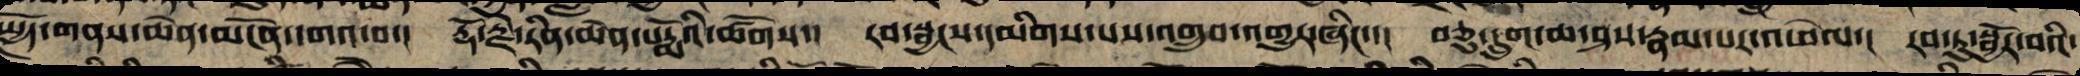སྤྱོད་གནས་ཆེན་མངོན་དགའ་བ་། རྡོ་རྗེ་རིན་ཆེན་པདྨོའི་ཚོགས་། རབ་སྦྱངས་དམིགས་པས་འགྲུབ་འགྱུར་ཞིང་་། བཅུ་དྲུག་ཆ་ཤས་རྣམ་པར་འཕེལ་། རབ་ཏུ་སྦྱོར་བའི་
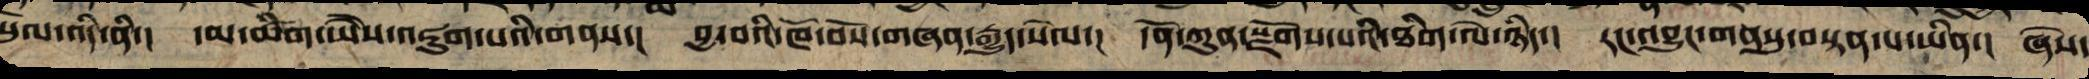ཡུལ་འདི་ནི་། དམ་ཚིག་ཡཻས་འཇུག་པའི་གནས་། བྱ་བའི་ཁོ་བོས་གཞན་རྒྱུད་སེལ་། དོན་ཀུན་སྫོགས་པའི་ཐིག་ལེ་ཉིད་། རང་བྱུང་གནསུ་བསྟན་པ་ཡིན་། ཞེས་
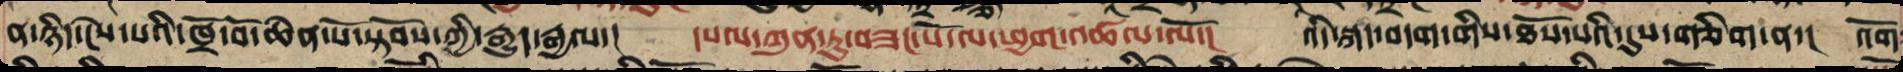ན་ཉིད་ངེས་པའི་ཁྲོ་བོ་ཆེན་པོ་སྟོབས་ཀྱི་རྒྱུད་རྒྱལ་། དཔལ་ཀུན་ཏུ་བཟང་པོ་ལ་ཕྱག་འཚལ་ལོ་། འདི་སྐད་བདག་གིས་ཐོས་པའི་དུས་གཅིག་ན་། འོག
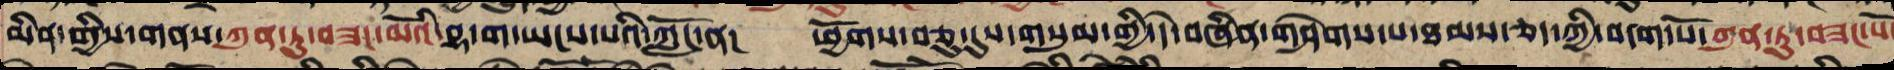མིན་གྱི་གནས་ཀུན་ཏུ་བཟང་མོའི་བྷ་ག་ཡངས་པའི་ཀློང་ན་། ཕྱོགས་བཅུ་དུས་གསུམ་གྱི་དེ་བཞིན་གཤེགས་པ་ཐམས་ཅད་ཀྱི་བདག་པོ་ཀུན་ཏུ་བཟང་པོ
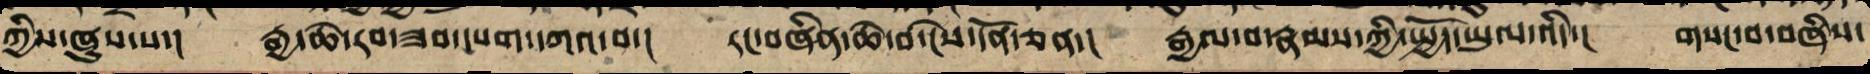ཀྱིས་ཞུས་པ་། རྒྱ་ཆེ་རབ་ཟབ་དཔག་དཀའ་བ་། རང་བཞིན་ཆེ་བ་ངེས་དོན་ཅན་། རྒྱལ་བ་རྣམས་ཀྱི་སྤྱོད་ཡུལ་འདི་། གསང་བ་བཞིས་
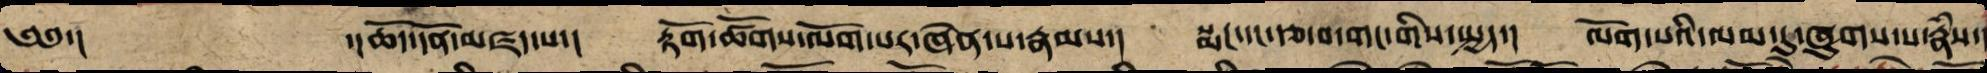༄༅་། ་།ཆོད་དོན་མཛད་པ་། རྟོག་ཚོགས་ལོག་པར་ཞེན་པ་རྣམས་། རྨང་དང་རྩ་བ་གང་གིས་སྤྱད་། ལོག་པའི་ལམ་དུ་ཞུགས་པ་རྣཾས་།
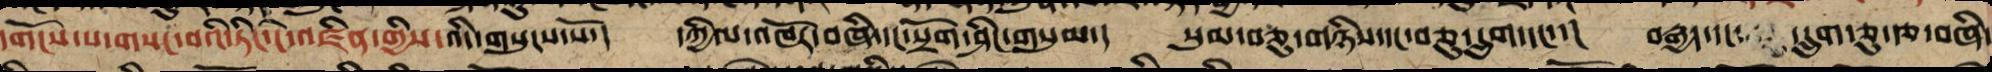དགོངས་པ་གསང་བའི་ཏིང་ངེ་འཛིན་གྱིས་འདི་གསུངས་སོ་། དཀྱིལ་འཁོར་བཞི་དང་སྲོག་ཤིང་གསུམ་། སུམ་ཅུ་གཉིས་དང་བཅུ་དྲུག་དང་་། བརྒྱད་དང་དྲུག་ཅུ་རྩ་བཞི་
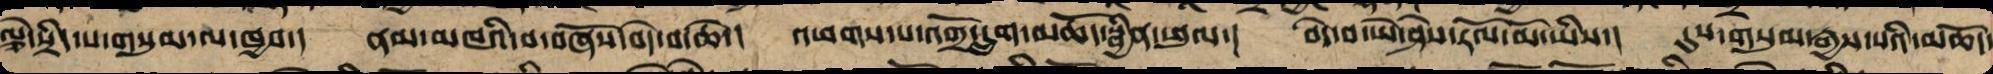ལྕེ་སྲིད་པ་གསུམ་ལ་ཁྱབ་། ནམ་མཁའི་བ་བཞོས་བདེ་བ་ཆེ་། འཕགས་པ་འགྲོ་དྲུག་མཆོད་སྦྱིན་ཕུལ་། བདེ་བ་ཡེ་ཤེས་རོལ་མོ་ཡིས་། དུས་གསུམ་རྒྱས་པའི་མཆོད་
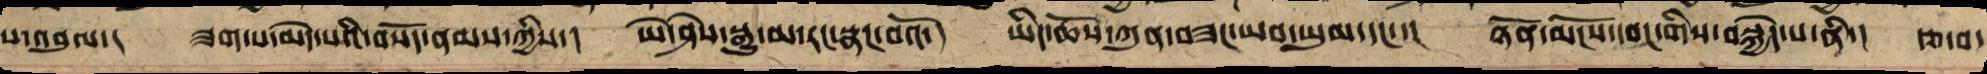པ་འབུལ་། ཟག་པ་མེད་པའི་བསོད་ནམས་ཀྱིས་། ཡེ་ཤེས་སྒྱུ་མ་རང་སྣང་བའོ་། ཡིད་ཆོས་ཀུན་བཟང་ཡབ་ཡུམ་དང་་། ཉོན་མོངས་དབང་གིས་བསྐྱེད་པ་ནི་། རྩ་བ
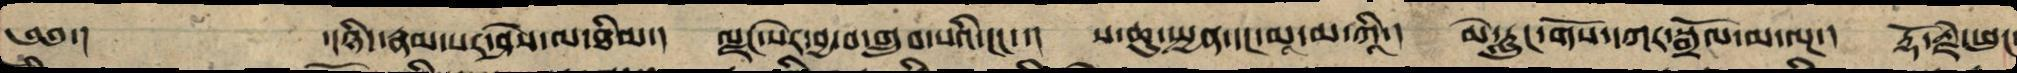༄༅་། ་།ཉིད་རྣམ་པར་ཤེས་ལ་ཐིམ་། ལྗང་སེར་བྱ་བ་གྲུབ་པའི་ངང་་། ས་ཆུ་སྤྱན་དང་མཱ་མ་ཀཱི་། མེ་རླུང་གོས་དཀར་སྒྲོལ་མ་ལྔ་། རྡོ་རྗེ་ཕུང་
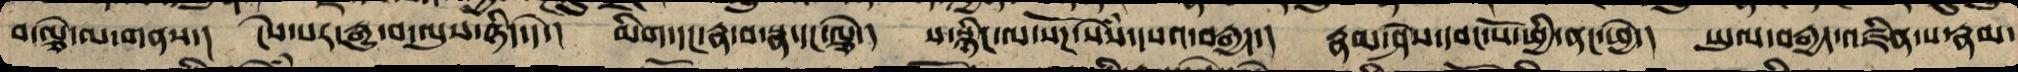བ་ལྕེ་ལ་གནས་། ངེས་པར་རྒྱུ་བ་ལུས་ཉིད་དེ་། མིག་དང་རྣ་བ་སྣ་དང་ལྕེ་། ས་སྙིང་ལ་སོཌ་སེཾས་དཔའ་བརྒྱད་། རྣམ་ཤེས་དབང་པོ་ཕྱི་ནང་ཕྱེ་། ཡུལ་བརྒྱད་འཛིན་པ་རྣམ་
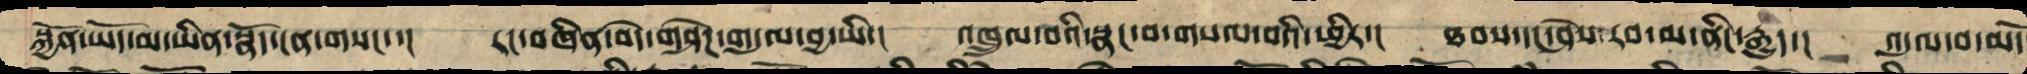སྐྱོན་ཡོད་མ་ཡིན་སྣོད་ངན་གསང་་། རང་བཞིན་བདེ་གཤེཌ་གདུལ་བྱ་ཡིས་། འཁྲུལ་པའི་སྣང་བ་བསལ་བའི་ཕྱིར་། ཐབས་དང་ཤེས་རབ་མ་ནིང་རྒྱུད་། འདུལ་བ་མདོ
